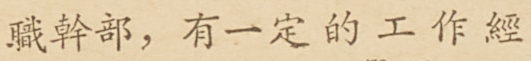職幹部，有一定的工作經
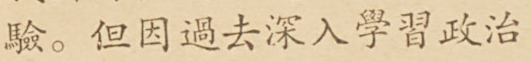驗。但因過去深入學習政治
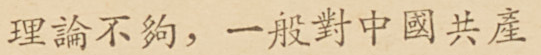理論不夠，一般對中國共產
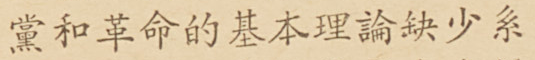黨和革命的基本理論缺少系
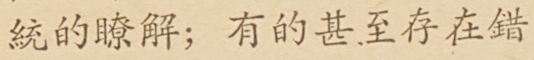統的瞭解；有的甚至存在錯
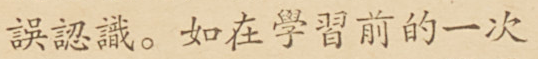誤認識。如在學習前的一次
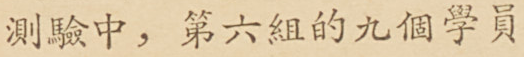測驗中，第六組的九個學員
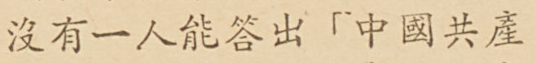沒有一人能答出「中國共產
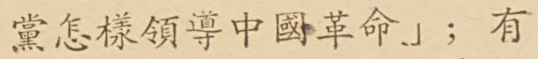黨怎樣領導中國革命」；有
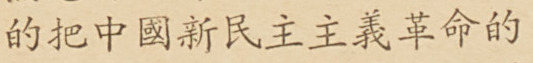的把中國新民主主義革命的
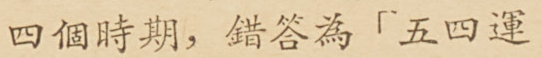四個時期，錯答爲「五四運
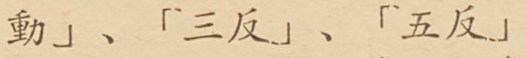動」、「三反」、「五反」
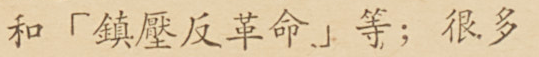和「鎮壓反革命」等；很多
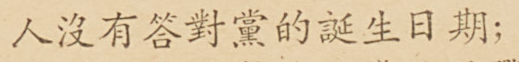人沒有答對黨的誕生日期；
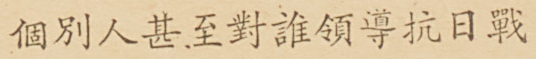個別人甚至對誰領導抗日戰
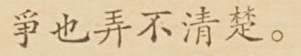爭也弄不清楚。
